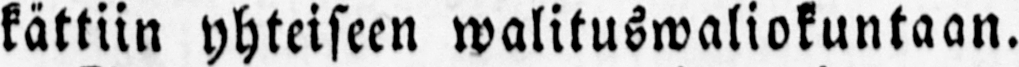kättiin yhteiseen walituswaliokuntaan.
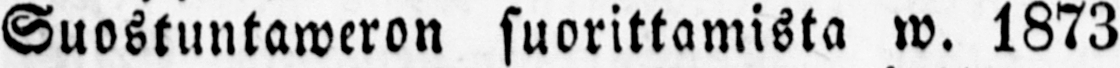Suostuntaweron suorittamista w. 1873
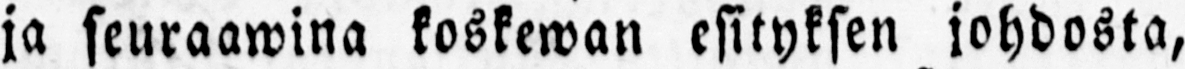ja seuraawina koskewan esityksen johdosta,
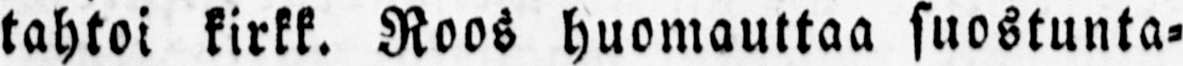tahtoi kirkk. Roos huomauttaa suostunta-
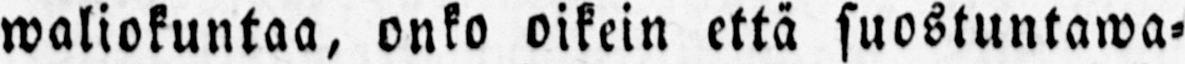waliokuntaa, onko oikein että suostuntawa-
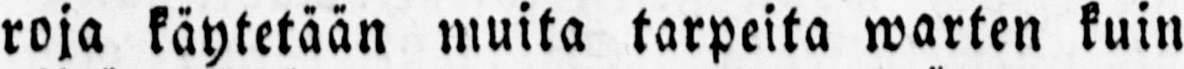roja käytetään muita tarpeita warten kuin
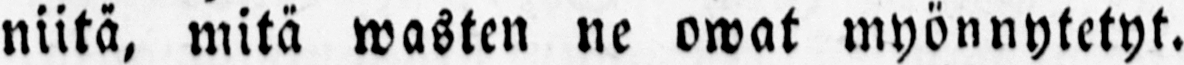niitä, mitä wasten ne owat myönnytetyt.
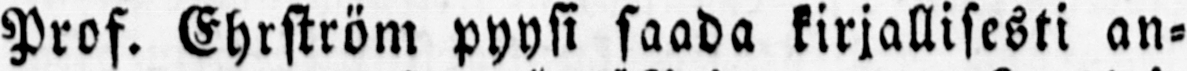Prof. Ehrström pyysi saada kirjallisesti an-
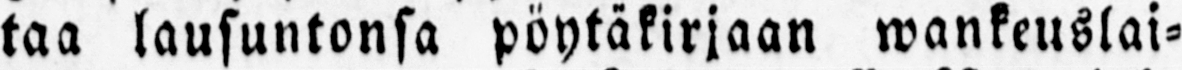taa lausuntonsa pöytäkirjaan wankeuslai-
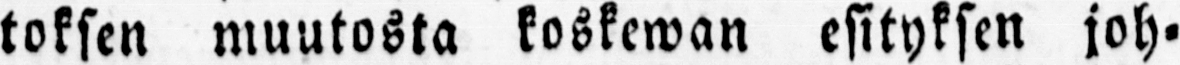toksen muutosta koskewan esityksen joh-
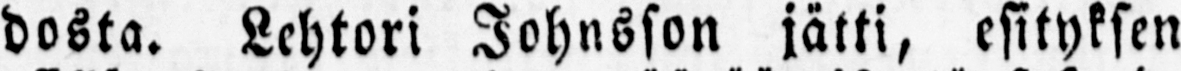dosta. Lehtori Johnsson jätti, esityksen
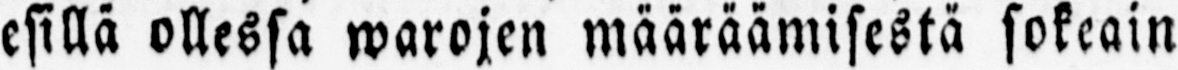esillä ollessa warojen määräämisestä sokeain
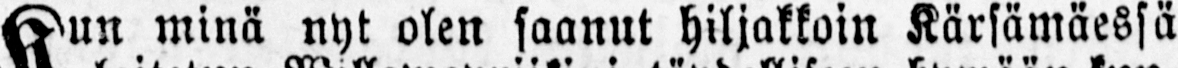Kun minä nyt olen saanut hiljakkoin Kärsämäessä
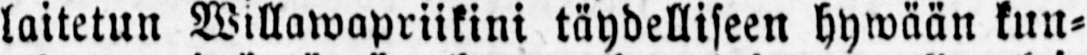laitetun Willawapriikini täydelliseen hywään kun-
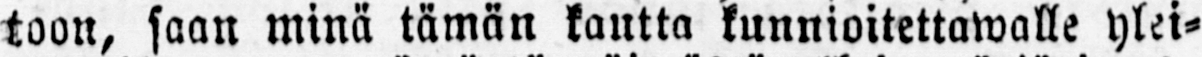toon, saan minä tämän kautta kunnioitettawalle ylei-
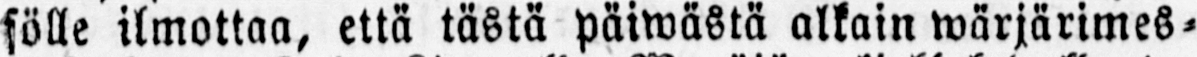sölle ilmottaa, että tästä päiwästä aikain wärjärimes-
